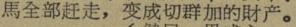馬全部赶走，变成切群加的財产。
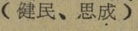（健明、思成）
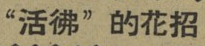“活佛”的花招
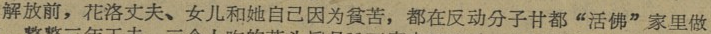解放前，花洛丈夫、女儿和他自己因为貧苦，都在反动分子甘都“活佛”家里做
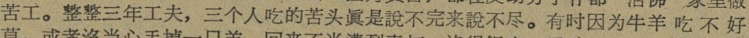苦工。整整三年工夫，三个人吃的苦头眞是說不完来說不尽。有时因为牛羊 吃 不 好
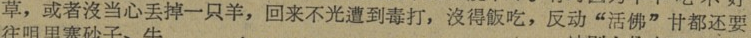草，或者沒当心丢掉一只羊，回来不光遭到毒打，沒得飯吃，反动“活佛”甘都还要
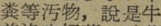粪等污物，說是牛
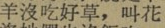羊沒吃好草，叫花
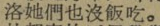洛她們也沒飯吃。
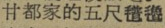甘都家的五尺氆氇
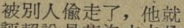被別人偷走了，他就
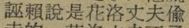誣賴說是花洛丈夫偷
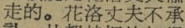走的。花洛丈夫不承
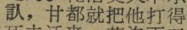认，甘都就把他打得
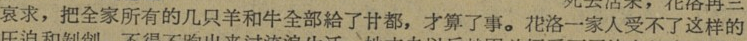哀求，把全家所有的几只羊和牛全部給了甘都，才算了事。花洛一家人受不了这样的
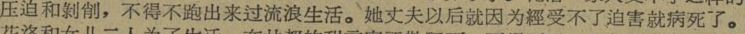压迫和剝削，不得不跑出来过流浪生活。她丈夫以后就因为經受不了迫害就病死了。
